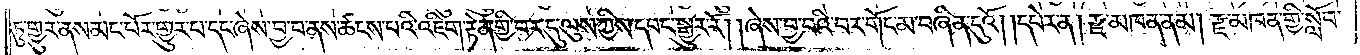ཏུ་གྱུར་ནས་མང་པོར་གྱུར་པ་དང་ཞེས་བྱ་བ་ནས་ཚངས་པའི་འཇིག་རྟེན་གྱི་བར་དུ་ལུས་ཀྱིས་དབང་སྒྱུར་རོ། །ཞེས་བྱ་བའི་བར་གོང་མ་བཞིན་དུའོ། །དཔེར་ན། རྫ་མཁན་ནམ། རྫ་མཁན་གྱི་སློབ་
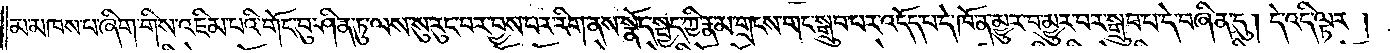མ་མཁས་པ་ཞིག་གིས་འཇིམ་པའི་གོང་བུ་ཤིན་ཏུ་ལས་སུ་རུང་བར་བྱས་པར་རིག་ནས་སྣོད་སྤྱད་ཀྱི་རྣམ་གྲངས་གང་སྒྲུབ་པར་འདོད་པ་དེ་ཁོ་ན་མྱུར་བ་མྱུར་བར་སྒྲུབ་པ་དེ་བཞིན་དུ། དེ་འདི་ལྟར།
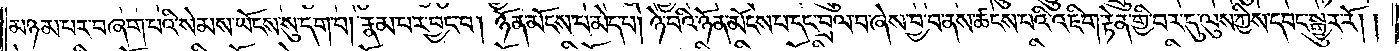མཉམ་པར་བཞག་པའི་སེམས་ཡོངས་སུ་དག་པ། རྣམ་པར་བྱང་བ། ཉོན་མོངས་པ་མེད་པ། ཉེ་བའི་ཉོན་མོངས་པ་དང་བྲལ་བ་ཞེས་བྱ་བ་ནས་ཚངས་པའི་འཇིག་རྟེན་གྱི་བར་དུ་ལུས་ཀྱིས་དབང་སྒྱུར་རོ། །
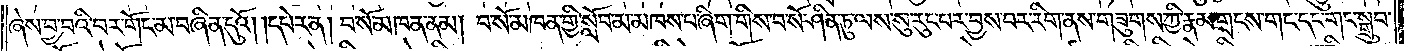ཞེས་བྱ་བའི་བར་གོང་མ་བཞིན་དུའོ། །དཔེར་ན། བ་སོ་མཁན་ནམ། བ་སོ་མཁན་གྱི་སློབ་མ་མཁས་པ་ཞིག་གིས་བ་སོ་ཤིན་ཏུ་ལས་སུ་རུང་པར་བྱས་བར་རིག་ནས་གཟུགས་ཀྱི་རྣམ་གྲངས་གང་དང་གང་སྒྲུབ་
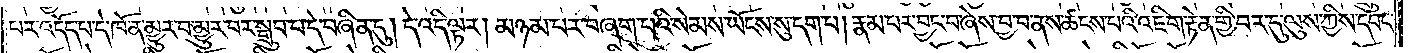པར་འདོད་པ་དེ་ཁོ་ན་མྱུར་བ་མྱུར་བར་སྒྲུབ་པ་དེ་བཞིན་དུ། དེ་འདི་ལྟར། མཉམ་པར་བཞག་པའི་སེམས་ཡོངས་སུ་དག་པ། རྣམ་པར་བྱང་བ་ཞེས་བྱ་བ་ནས་ཚངས་པའི་འཇིག་རྟེན་གྱི་བར་དུ་ལུས་ཀྱིས་དབང་
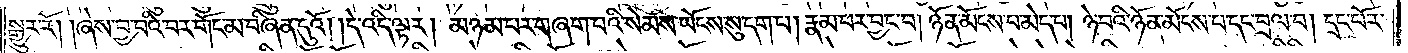སྒྱུར་རོ། །ཞེས་བྱ་བའི་བར་གོང་མ་བཞིན་དུའོ། །དེ་འདི་ལྟར། མཉམ་པར་གཞག་པའི་སེམས་ཡོངས་སུ་དག་པ། རྣམ་པར་བྱང་བ། ཉོན་མོངས་པ་མེད་པ། ཉེ་བའི་ཉོན་མོངས་པ་དང་བྲལ་བ། དྲང་པོར་
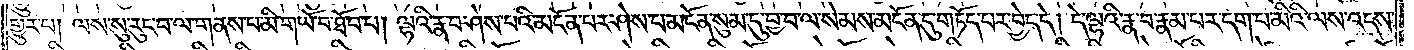གྱུར་པ། ལས་སུ་རུང་བ་ལ་གནས་པ་མི་གཡོ་བ་ཐོབ་པ། ལྷའི་རྣ་བ་ཤེས་པའི་མངོན་པར་ཤེས་པ་མངོན་སུམ་དུ་བྱ་བ་ལ་སེམས་མངོན་དུ་གཏོད་པར་བྱེད་དེ། དེ་ལྷའི་རྣ་བ་རྣམ་པར་དག་པ་མིའི་ལས་འདས་
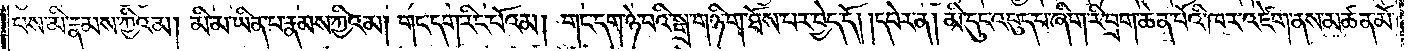པས་མི་རྣམས་ཀྱིའམ། མི་མ་ཡིན་པ་རྣམས་ཀྱིའམ། གང་དག་རིང་པོའམ། གང་དག་ཉེ་བའི་སྒྲ་གཉི་ག་ཐོས་པར་བྱེད་དོ། །དཔེར་ན། མི་དུང་འབུད་པ་ཞིག་རི་བྲག་ཆེན་པོའི་ཁར་འཛེག་ནས་མཚན་མོ་
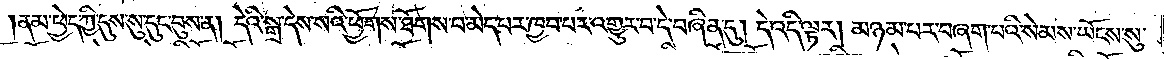ནམ་ཕྱེད་ཀྱི་དུས་སུ་དུང་བུས་ན། དེའི་སྒྲ་དེས་སའི་ཕྱོགས་ཐོགས་པ་མེད་པར་ཁྱབ་པར་འགྱུར་བ་དེ་བཞིན་དུ། དེ་འདི་ལྟར། མཉམ་པར་བཞག་པའི་སེམས་ཡོངས་སུ་
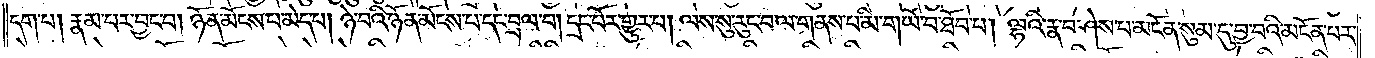དག་པ། རྣམ་པར་བྱང་བ། ཉོན་མོངས་པ་མེད་པ། ཉེ་བའི་ཉོན་མོངས་པ་དང་བྲལ་བ། དྲང་པོར་གྱུར་པ། ལས་སུ་རུང་བ་ལ་གནས་པ་མི་གཡོ་བ་ཐོབ་པ། ལྷའི་རྣ་བ་ཤེས་པ་མངོན་སུམ་དུ་བྱ་བའི་མངོན་པར་
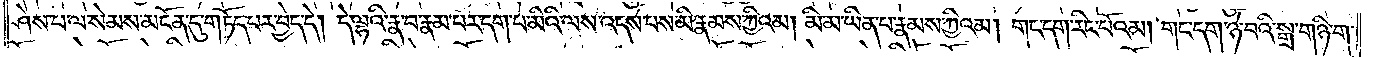ཤེས་པ་ལ་སེམས་མངོན་དུ་གཏོད་པར་བྱེད་དེ། དེ་ལྷའི་རྣ་བ་རྣམ་པར་དག་པ་མིའི་ལས་འདས་པས་མི་རྣམས་ཀྱིའམ། མི་མ་ཡིན་པ་རྣམས་ཀྱིའམ། གང་དག་རིང་པོའམ། གང་དག་ཉེ་བའི་སྒྲ་གཉི་ག་
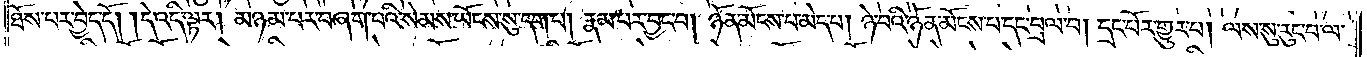ཐོས་པར་བྱེད་དོ། །དེ་འདི་ལྟར། མཉམ་པར་བཞག་པའི་སེམས་ཡོངས་སུ་དག་པ། རྣམ་པར་བྱང་བ། ཉོན་མོངས་པ་མེད་པ། ཉེ་བའི་ཉོན་མོངས་པ་དང་བྲལ་བ། དྲང་པོར་གྱུར་པ། ལས་སུ་རུང་བ་ལ་
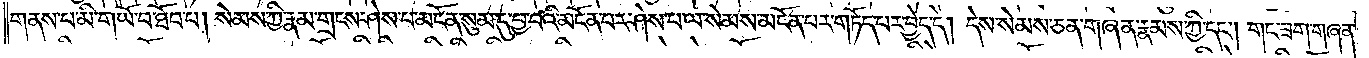གནས་པ་མི་གཡོ་བ་ཐོབ་པ། སེམས་ཀྱི་རྣམ་གྲངས་ཤེས་པ་མངོན་སུམ་དུ་བྱ་བའི་མངོན་པར་ཤེས་པ་ལ་སེམས་མངོན་པར་གཏོད་པར་བྱེད་དེ། དེས་སེམས་ཅན་གཞན་རྣམས་ཀྱི་དང༌། གང་ཟག་གཞན་
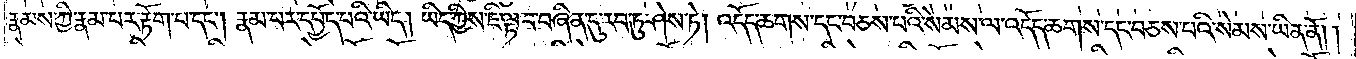རྣམས་ཀྱི་རྣམ་པར་རྟོག་པ་དང༌། རྣམ་པར་དཔྱོད་པའི་ཡིད། ཡིད་ཀྱིས་ཇི་ལྟ་བ་བཞིན་དུ་རབ་ཏུ་ཤེས་ཏེ། འདོད་ཆགས་དང་བཅས་པའི་སེམས་ལ་འདོད་ཆགས་དང་བཅས་པའི་སེམས་ཡིན་ནོ། །
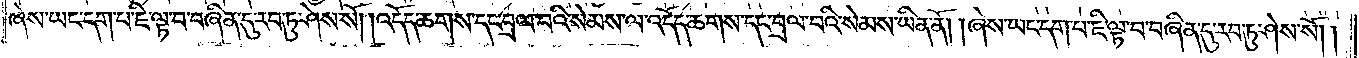ཞེས་ཡང་དག་པ་ཇི་ལྟ་བ་བཞིན་དུ་རབ་ཏུ་ཤེས་སོ། །འདོད་ཆགས་དང་བྲལ་བའི་སེམས་ལ་འདོད་ཆགས་དང་བྲལ་བའི་སེམས་ཡིན་ནོ། །ཞེས་ཡང་དག་པ་ཇི་ལྟ་བ་བཞིན་དུ་རབ་ཏུ་ཤེས་སོ། །
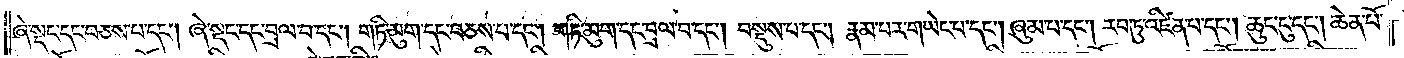ཞེ་སྡང་དང་བཅས་པ་དང༌། ཞེ་སྡང་དང་བྲལ་བ་དང༌། གཏི་མུག་དང་བཅས་པ་དང༌། གཏི་མུག་དང་བྲལ་བ་དང༌། བསྡུས་པ་དང༌། རྣམ་པར་གཡེང་བ་དང༌། ཞུམ་པ་དང༌། རབ་ཏུ་འཛིན་པ་དང༌། ཆུང་ངུ་དང༌། ཆེན་པོ་
